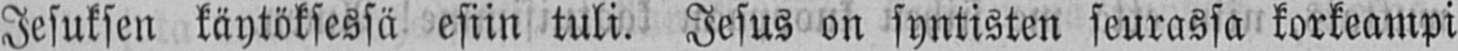Jesuksen käytöksessä esiin tuli. Jesus on syntisten seurassa korkeampi
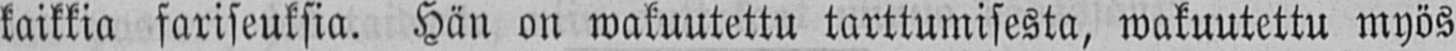kaikkia fariseuksia. Hän on wakuutettu tarttumisesta, wakuutettu myös
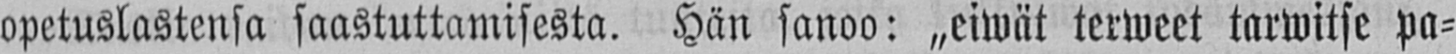opetuslastensa saastuttamisesta. Hän sanoo: „eiwät terweet tarwitse pa-
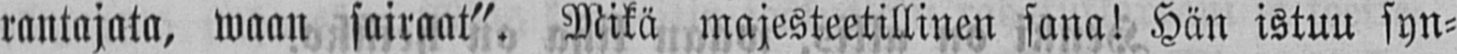rantajata, waan sairaat". Mikä majesteetillinen sana! Hän istuu syn-
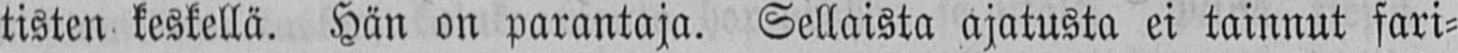tisten keskellä. Hän on parantaja. Sellaista ajatusta ei tainnut fari-
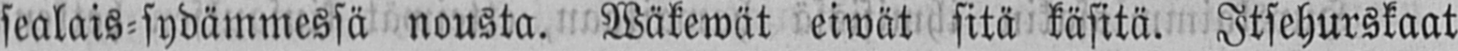sealais-sydämmessä nousta. Wäkewät eiwät sitä käsitä. Itsehurskaat
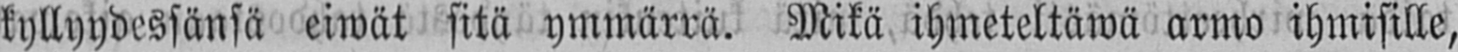kyllyydessänsä eiwät sitä ymmärrä. Mikä ihmeteltäwä armo ihmisille,
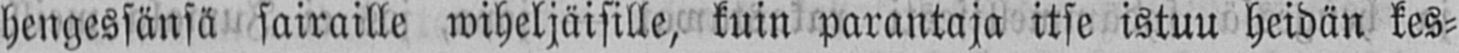hengessänsä sairaille wiheljäisille, kuin parantaja itse istuu heidän kes-
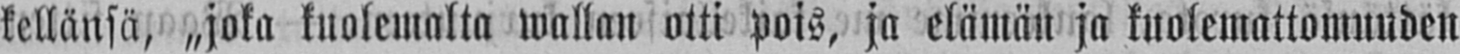kellänsä, „joka kuolemalta wallan otti pois, ja elämän ja kuolemattomuuden
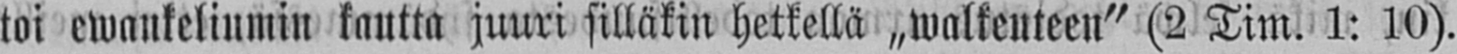toi ewankeliumin kautta juuri silläkin hetkellä „walkeuteen" (2 Tim. 1: 10).
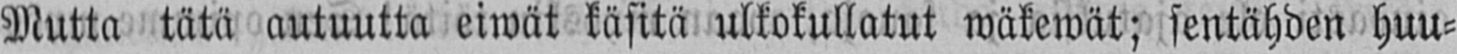Mutta tätä autuutta eiwät käsitä ulkokullatut wäkewät; sentähden huu-
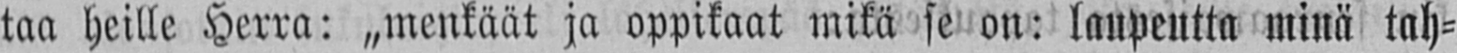taa heille Herra: „menkäät ja oppikaat mikä se on: laupeutta minä tah-
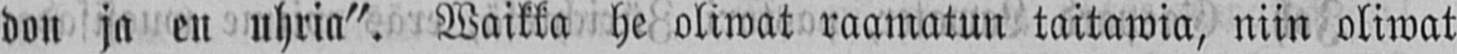don ja en uhria". Waikka he oliwat raamatun taitawia, niin oliwat
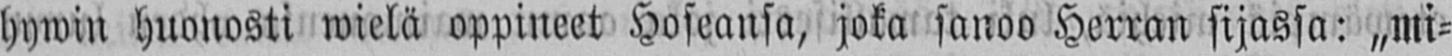hywin huonosti wielä oppineet Hoseansa, joka sanoo Herran sijassa: „mi-
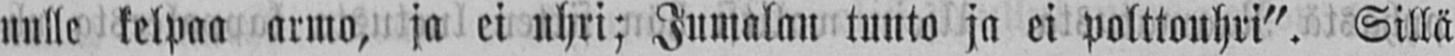nulle kelpaa armo, ja ei uhri; Jumalan tunto ja ei polttouhri". Sillä
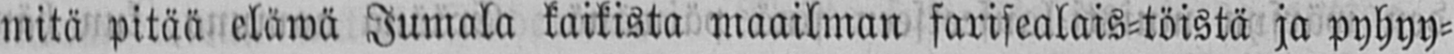mitä pitää eläwä Jumala kaikista maailman farisealais-töistä ja pyhyy-
